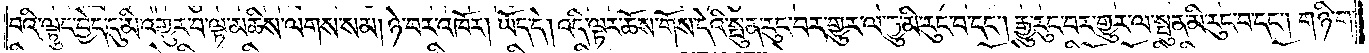བའི་ལྟུང་བྱེད་དུ་མི་འགྱུར་བ་ལྟ་མཆིས་ལགས་སམ། ཉེ་བར་འཁོར། ཡོད་དེ། འདི་ལྟར་ཆོས་གོས་དེའི་སྤུན་རུང་བར་གྱུར་ལ་རྒྱུ་མི་རུང་བ་དང༌། རྒྱུ་རུང་བར་གྱུར་ལ་སྤུན་མི་རུང་བ་དང༌། གཉི་ག་
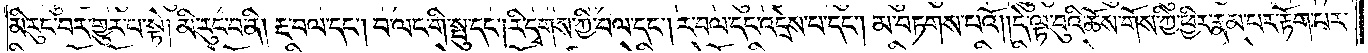མི་རུང་བར་གྱུར་པ་སྟེ། མི་རུང་བ་ནི། རྔ་བལ་དང༌། བ་ལང་གི་སྤུ་དང༌། རི་དྭགས་ཀྱི་བལ་དང༌། ར་བལ་དང་འདྲེས་པ་དང༌། མ་བཏགས་པའོ། །དེ་ལྟ་བུའི་ཆོས་གོས་ཀྱི་ཕྱིར་རྣམ་པར་རྟོག་པར་
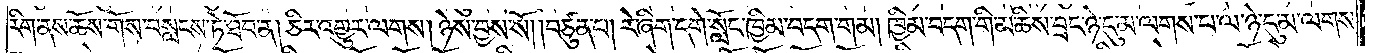རིག་ནས་ཆོས་གོས་བསླངས་ཏེ་ཐོབ་ན། ཅིར་འགྱུར་ལགས། ཉེས་བྱས་སོ། །བཙུན་པ། རེ་ཞིག་དགེ་སློང་ཁྱིམ་བདག་གམ། ཁྱིམ་བདག་གི་མཆིས་བྲང་ཉེ་དུ་མ་ལགས་པ་ལ་ཉེ་དུ་མ་ལགས་
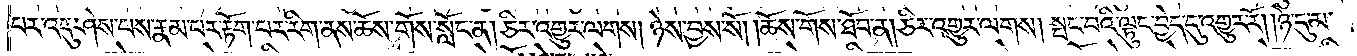པར་འདུ་ཤེས་པས་རྣམ་པར་རྟོག་པར་རིག་ནས་ཆོས་གོས་སློང་ན། ཅིར་འགྱུར་ལགས། ཉེས་བྱས་སོ། །ཆོས་གོས་ཐོབ་ན། ཅིར་འགྱུར་ལགས། སྤང་བའི་ལྟུང་བྱེད་དུ་འགྱུར་རོ། །ཉེ་དུ་མ་
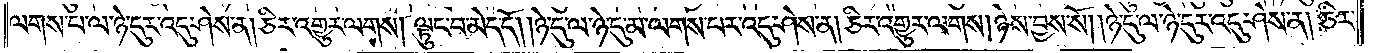ལགས་པ་ལ་ཉེ་དུར་འདུ་ཤེས་ན། ཅིར་འགྱུར་ལགས། ལྟུང་བ་མེད་དོ། །ཉེ་དུ་ལ་ཉེ་དུ་མ་ལགས་པར་འདུ་ཤེས་ན། ཅིར་འགྱུར་ལགས། ཉེས་བྱས་སོ། །ཉེ་དུ་ལ་ཉེ་དུར་འདུ་ཤེས་ན། ཅིར་
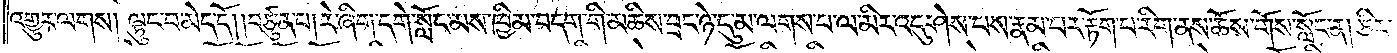འགྱུར་ལགས། ལྟུང་བ་མེད་དོ། །བཙུན་པ། རེ་ཞིག་དགེ་སློང་མས་ཁྱིམ་བདག་གི་མཆིས་བྲང་ཉེ་དུ་མ་ལགས་པ་ལ་མིར་འདུ་ཤེས་པས་རྣམ་པར་རྟོག་པ་རིག་ནས་ཆོས་གོས་སློང་ན། ཅིར་
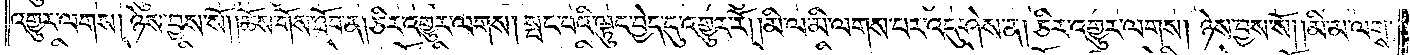འགྱུར་ལགས། ཉེས་བྱས་སོ། །ཆོས་གོས་ཐོབ་ན། ཅིར་འགྱུར་ལགས། སྤང་བའི་ལྟུང་བྱེད་དུ་འགྱུར་རོ། །མི་ལ་མི་ལགས་པར་འདུ་ཤེས་ན། ཅིར་འགྱུར་ལགས། ཉེས་བྱས་སོ། །མི་མ་ལགས་
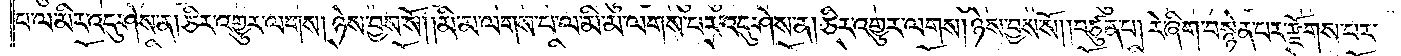པ་ལ་མིར་འདུ་ཤེས་ན། ཅིར་འགྱུར་ལགས། ཉེས་བྱས་སོ། །མི་མ་ལགས་པ་ལ་མི་མ་ལགས་པར་འདུ་ཤེས་ན། ཅིར་འགྱུར་ལགས། ཉེས་བྱས་སོ། །བཙུན་པ། རེ་ཞིག་བསྙེན་པར་རྫོགས་པར་
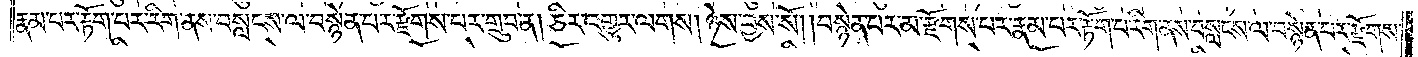རྣམ་པར་རྟོག་པར་རིག་ནས་བསླངས་ལ་བསྙེན་པར་རྫོགས་པར་གྲུབ་ན། ཅིར་འགྱུར་ལགས། ཉེས་བྱས་སོ། །བསྙེན་པར་མ་རྫོགས་པར་རྣམ་པར་རྟོག་པ་རིག་ནས་བསླངས་ལ་བསྙེན་པར་རྫོགས་
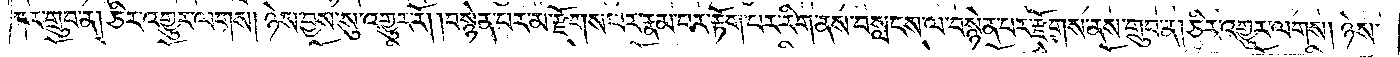ཀར་གྲུབ་ན། ཅིར་འགྱུར་ལགས། ཉེས་བྱས་སུ་འགྱུར་རོ། །བསྙེན་པར་མ་རྫོགས་པར་རྣམ་པར་རྟོག་པར་རིག་ནས་བསླངས་ལ་བསྙེན་པར་རྫོགས་ནས་གྲུབ་ན། ཅིར་འགྱུར་ལགས། ཉེས་
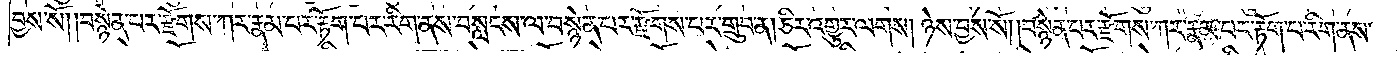བྱས་སོ། །བསྙེན་པར་རྫོགས་ཀར་རྣམ་པར་རྟོག་པར་རིག་ནས་བསླངས་ལ་བསྙེན་པར་རྫོགས་པར་གྲུབ་ན། ཅིར་འགྱུར་ལགས། ཉེས་བྱས་སོ། །བསྙེན་པར་རྫོགས་ཀར་རྣམ་པར་རྟོག་པ་རིག་ནས་
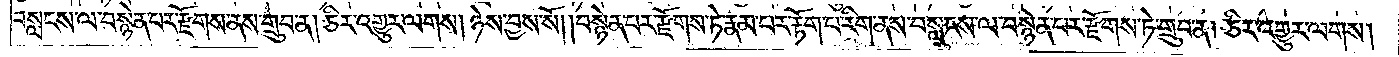བསླངས་ལ་བསྙེན་པར་རྫོགས་ནས་གྲུབ་ན། ཅིར་འགྱུར་ལགས། ཉེས་བྱས་སོ། །བསྙེན་པར་རྫོགས་ཏེ་རྣམ་པར་རྟོག་པ་རིག་ནས་བསླངས་ལ་བསྙེན་པར་རྫོགས་ཏེ་གྲུབ་ན། ཅིར་འགྱུར་ལགས།
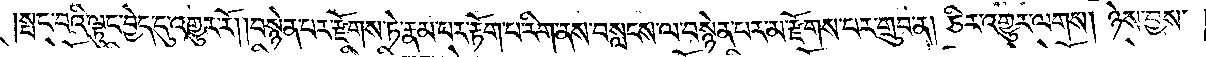།སྤང་བའི་ལྟུང་བྱེད་དུ་འགྱུར་རོ། །བསྙེན་པར་རྫོགས་ཏེ་རྣམ་པར་རྟོག་པ་རིག་ནས་བསླངས་ལ་བསྙེན་པར་མ་རྫོགས་པར་གྲུབ་ན། ཅིར་འགྱུར་ལགས། ཉེས་བྱས་
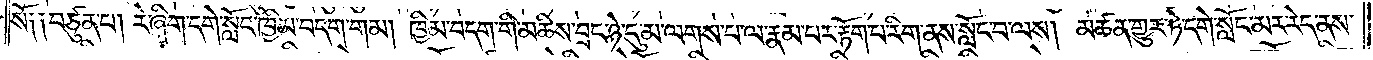སོ༑ ༑བཙུན་པ། རེ་ཞིག་དགེ་སློང་ཁྱིམ་བདག་གམ། ཁྱིམ་བདག་གི་མཆིས་བྲང་ཉེ་དུ་མ་ལགས་པ་ལ་རྣམ་པར་རྟོག་པ་རིག་ནས་སློང་བ་ལས། མཚན་གྱུར་ཏེ་དགེ་སློང་མར་རེད་ནས་
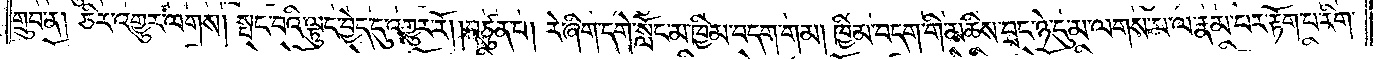གྲུབ་ན། ཅིར་འགྱུར་ལགས། སྤང་བའི་ལྟུང་བྱེད་དུ་འགྱུར་རོ། །བཙུན་པ། རེ་ཞིག་དགེ་སློང་མ་ཁྱིམ་བདག་གམ། ཁྱིམ་བདག་གི་མཆིས་བྲང་ཉེ་དུ་མ་ལགས་པ་ལ་རྣམ་པར་རྟོག་པ་རིག་
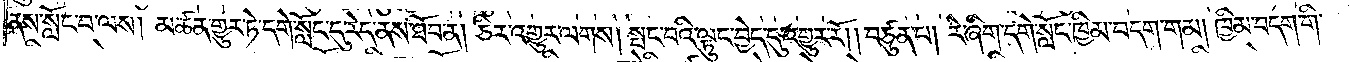ནས་སློང་བ་ལས། མཚན་གྱུར་ཏེ་དགེ་སློང་དུ་རེད་ནས་ཐོབ་ན། ཅིར་འགྱུར་ལགས། སྤང་བའི་ལྟུང་བྱེད་དུ་འགྱུར་རོ། །བཙུན་པ། རེ་ཞིག་དགེ་སློང་ཁྱིམ་བདག་གམ། ཁྱིམ་བདག་གི་
